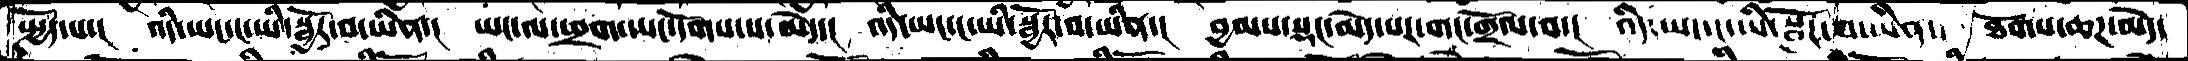སྤྱོད་པ་།  འདི་ཡང་ང་ཡི་སྦྱོར་བ་ཡིན་།  ཡང་ལ་ཕྲག་ཡང་དགོས་པ་མེད་།  འདི་ཡང་ང་ཡི་སྦྱོར་བ་ཡིན་།  བྱམས་སྡང་མེད་པར་གང་གྲོལ་བ་།  འདི་ཡང་ང་ཡི་སྦྱོར་བ་ཡིན་།  ཐོགས་ཆཌ་མེད་
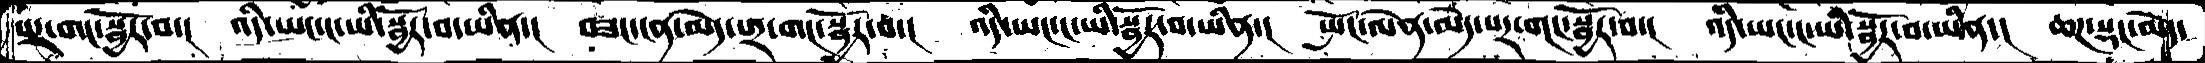པར་གང་སྦྱོར་བ་།  འདི་ཡང་ང་ཡི་སྦྱོར་བ་ཡིན་།  བཟང་ངན་མེད་པར་གང་སྦྱོར་བ་།  འདི་ཡང་ང་ཡི་སྦྱོར་བ་ཡིན་།  སྤོང་ལེན་མེད་པར་གང་སྦྱོར་བ་།  འདི་ཡང་ང་ཡི་སྦྱོར་བ་ཡིན་།  ཆཌ་སྡང་མེད་
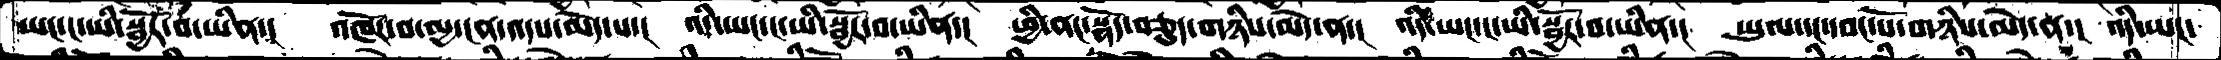ཡང་ང་ཡི་སྦྱོར་བ་ཡིན་།  འཁོར་བ་མྱ་ངན་འདས་མེད་པ་།  འདི་ཡང་ང་ཡི་སྦྱོར་བ་ཡིན་།  ཕྱི་ནང་སྣོད་བཅུད་གཉིས་མེད་ན་།  འདི་ཡང་ང་ཡི་སྦྱོར་བ་ཡིན་།  ཡུལ་དང་དབང་པོ་གཉིས་མེད་ན་།  འདི་ཡང་
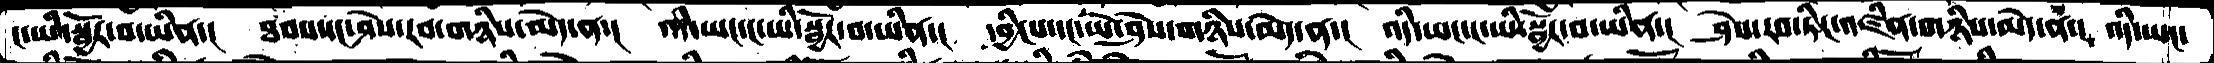ང་ཡི་སྦྱོར་བ་ཡིན་།  ཐབས་དང་ཤེས་རབ་གཉིས་མེད་ན་།  འདི་ཡང་ང་ཡི་སྦྱོར་བ་ཡིན་།  དབྱིངས་དང་ཡེ་ཤེས་གཉིས་མེད་ན་།  འདི་ཡང་ང་ཡི་སྦྱོར་བ་ཡིན་།   ཤེས་རབ་ཏིང་འཛིན་གཉིས་མེད་ན་།  འདི་ཡང་
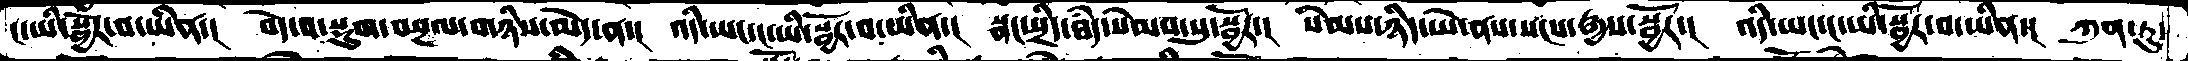ང་ཡི་སྦྱོར་བ་ཡིན་།  བདེ་བ་སྡུག་བསྔལ་གཉིས་མེད་ན་  འདི་ཡང་ང་ཡི་སྦྱོར་བ་ཡིན་།  སྣང་སྲིད་ཐཾད་སེམས་སུ་སྦྱོར་།  སེམས་ཉིད་ཡེ་ནས་སངས་རྒྱས་སྦྱོར་།  འདི་ཡང་ང་ཡི་སྦྱོར་བ་ཡིན་།  ཀུན་ཏུ་
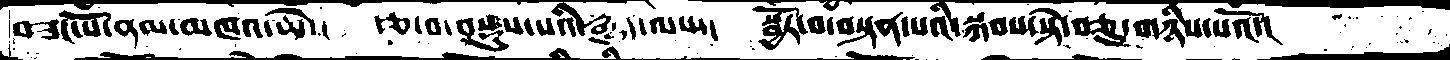བཟང་པོ་ནམ་མཁའ་ཆེ་།  རྩ་བ་བསྡུས་པའི་རྒྱུད་ལས་།  སྦྱོར་བ་བསྟན་པའི་སྐབས་སྟེ་བཅུ་གཉིས་པའོ་།
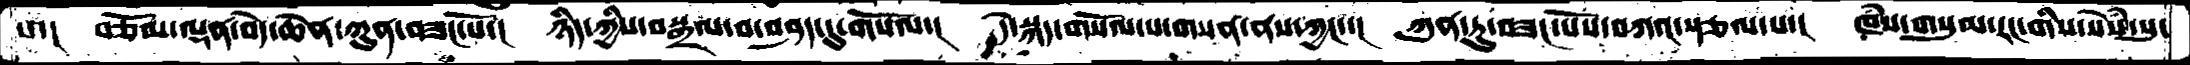པ་།  བཅོམ་ལྡན་བདེ་ཆེན་ཀུན་བཟང་པོ་།  ཉིད་ཀྱིས་བསྒྲལ་བ་བཤད་དུ་གསོལ་།  དེ་སྐད་གསོལ་པ་གསན་ནས་ཀྱང་་།  ཀུན་ཏུ་བཟང་པོས་བཀའ་སྩལ་པ་།  ཁཾས་གསུམ་རང་གིས་སེཾས་སུ་
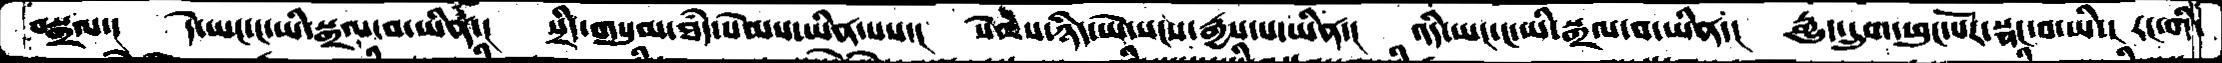བསྒྲལ་།  དེ་ཡང་ང་ཡི་སྒྲལ་བ་ཡིན་།  སྲིད་གསུམ་ཐཾད་སེམས་ཡིན་པས་།  སེམས་ཉིད་ཡེ་སངས་རྒྱས་པ་ཡིན་། འདི་ཡང་ང་ཡི་སྒྲལ་བ་ཡིན་།  རྒྱུད་དྲུག་ཕུང་པོར་སྣང་བ་ཡི་།  རང་གི་
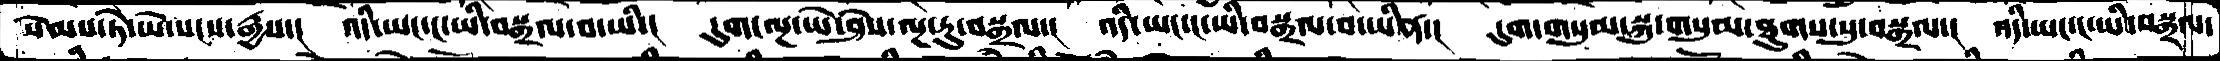སེམས་ཏེ་ཡེ་སངས་རྒྱས་།  འདི་ཡང་ང་ཡི་བསྒྲལ་བ་ཡི་།  དུས་ལྔ་ཡེ་ཤེས་ལྔ་རུ་བསྒྲལ་།  འདི་ཡང་ང་ཡི་བསྒྲལ་བ་ཡིན་།   དུག་གསུམ་སྐུ་གསུམ་ཐུགས་སུ་བསྒྲལ་།  འདི་ཡང་ང་ཡི་བསྒྲལ་
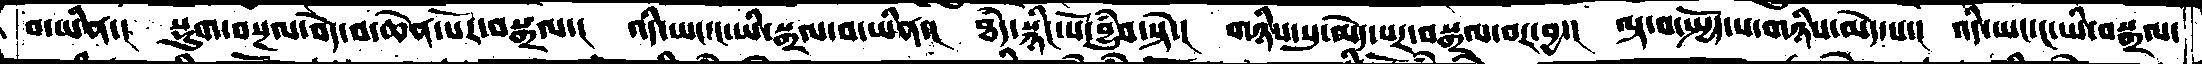བ་ཡིན་།  སྡུག་བསྔལ་བདེ་བ་ཆེན་པོར་བསྒྲལ་།  འདི་ཡང་ང་ཡི་སྒྲལ་བ་ཡིན་།  ཐཾད་སྙིང་པོ་བྱུཾབ་སྟེ་།  གཉིས་སུ་མེད་པར་བསྒྲལ་བར་བྱ་།  ལྟ་བ་སྤྱོད་པ་གཉིས་མེད་པ་།  འདི་ཡང་ང་ཡི་བསྒྲལ་
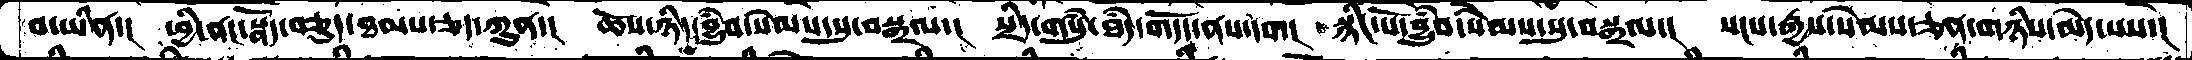བ་ཡིན་།  ཕྱི་ནང་སྣོད་བཅུད་ཐམས་ཅད་ཀུན་།  ཆོས་ཉིད་བྱུཾབ་སེམས་སུ་བསྒྲལ་།  སྲིད་གསུཾ་ཐཾད་གདོད་ནས་དག།  སྙིང་པོ་བྱུཾབ་སེམས་སུ་བསྒྲལ་།  སངས་རྒྱས་སེམས་ཅན་གཉིས་མེད་པས་།
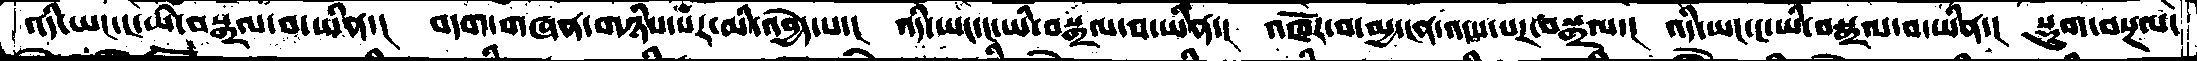འདི་ཡང་ང་ཡི་བསྒྲལ་བ་ཡིན་།  བདག་གཞན་གཉིས་སར་མི་འབྱེད་པ་།  འདི་ཡང་ང་ཡི་བསྒྲལ་བ་ཡིན་།  འཁོར་བ་མྱ་ངན་འདས་པར་བསྒྲལ་།  འདི་ཡང་ང་ཡི་བསྒྲལ་བ་ཡིན་།  སྡུག་བསྔལ་
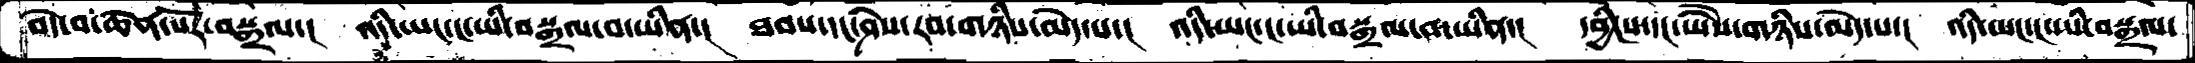བདེ་བ་ཆེན་པོོར་བསྒྲལ་།  འདི་ཡང་ང་ཡི་བསྒྲལ་བ་ཡིན་།  ཐབས་དང་ཤེས་རབ་གཉིས་མེད་པ་།  འདི་ཡང་ང་ཡི་བསྒྲལ་བ་ཡིན་།  དབྱིངས་དང་ཡཻས་གཉིས་མེད་པ་།  འདི་ཡང་ང་ཡི་བསྒྲལ་
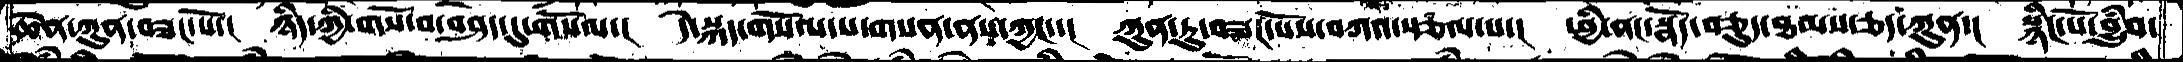ཆེན་ཀུན་བཟང་པོ་།  ཉིད་ཀྱི་གསོ་བ་བཤད་དུ་གསོལ་།  དེ་སྐད་གསོལ་པ་གསན་ནས་ཀྱང་་།  ཀུན་ཏུ་བཟང་པོས་བཀའ་སྩལ་པ་།  ཕྱི་ནང་སྣོད་བཅུད་ཐམས་ཅད་ཀུན་།  སྙིང་པོ་བྱུཾབ་
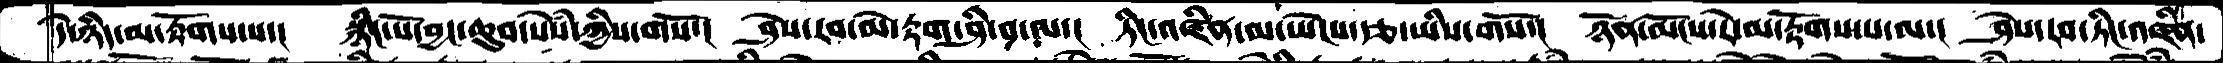དེ་ཉིད་མ་རྟོགས་པ་།  སྙིང་པོ་བྱང་ཆུབ་སེཾས་ཀྱིས་གསོ་།  ཤེས་རབ་མེ་རྟག་ཤི་བ་ལ་།  ཏིང་འཛིན་མ་ཡེངས་རྩ་ཡིས་གསོ་།  ཉོན་མོངས་རེ་མ་རྟོགས་པ་ལ་།  ཤེས་རབ་ཏིང་འཛིན་
